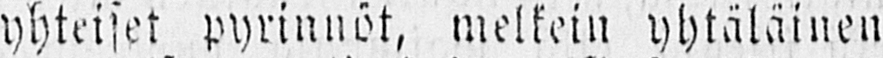yhteiset pyrinnöt, melkein yhtäläinen
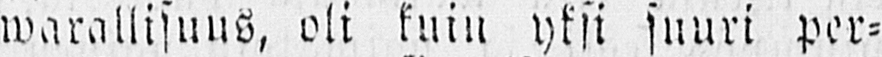warallisuus, oli kuin yksi suuri per-
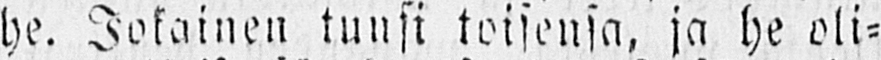he. Jokainen tunsi toisensa, ja he oli-
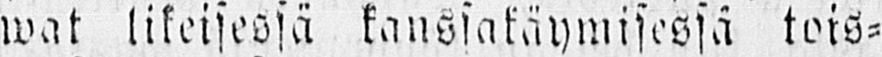wat likeisessä kanssakäymisessä tois-
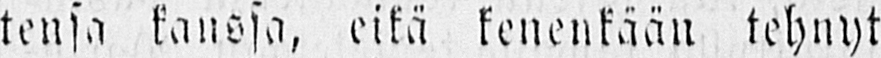tensa kanssa, eikä kenenkään tehnyt
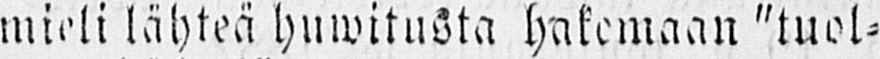mieli lähteä huwitusta hakemaan "tuol-
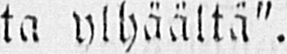ta ylhäältä".
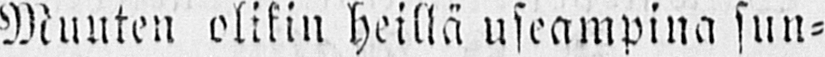Muuten olikin heillä useampina sun-
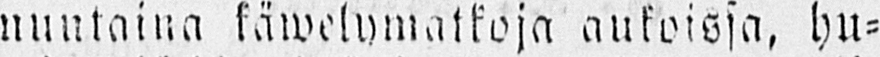nuntaina käwelymatkoja aukoissa, hu-
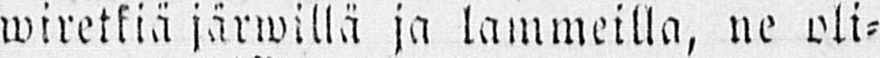wiretkiä järwillä ja lammeilla, ne oli-
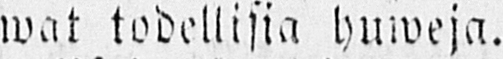wat todellisia huweja.
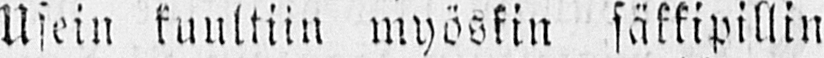Usein kuultiin myöskin säkkipillin
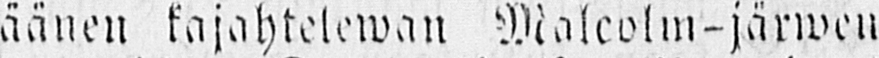äänen kajahtelewan Malcolm - järwen
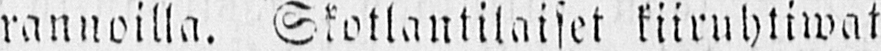rannoilla. Skotlantilaiset kiiruhtiwat
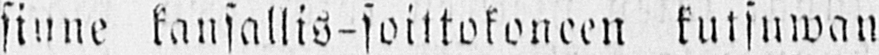sinne kansallis-soittokoneen kutsuwan
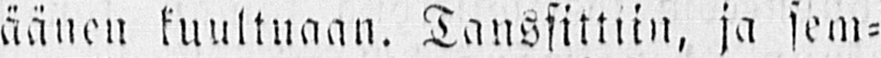äänen kuultuaan. Tanssittiin, ja sem-
